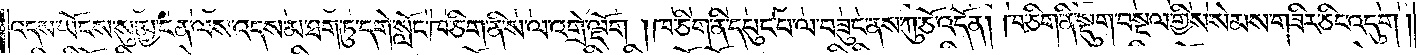འདས་ཡོངས་སུ་མྱ་ངན་ལས་འདས་མ་ཐག་ཏུ་དགེ་སློང་ཁ་ཅིག་ནི་ས་ལ་འགྲེ་ལྡོག །ཁ་ཅིག་ནི་དཔུང་བ་ལ་བཟུང་ནས་ཀུ་ཅོ་འདོན། ཁ་ཅིག་ནི་སྡུག་བསྔལ་གྱིས་སེམས་གཟིར་ཅིང་འདུག །
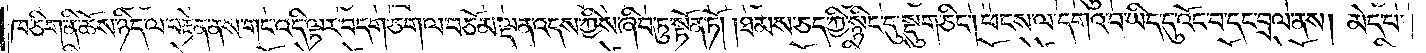ཁ་ཅིག་ནི་ཆོས་ཉིད་ལ་བརྟེན་ནས་གང་འདི་ལྟར་བདག་ཅག་ལ་བཅོམ་ལྡན་འདས་ཀྱིས་ཞིབ་ཏུ་སྟོན་ཏོ། །ཐམས་ཅད་ཀྱི་སྙིང་དུ་སྡུག་ཅིང༌། ཕངས་ལ་དགའ་བ་ཡིད་དུ་འོང་བ་དང་བྲལ་ནས། མེད་པ་
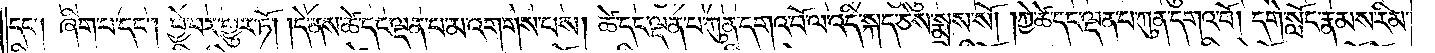དང༌། ཞིག་པ་དང༌། བྱེ་བར་གྱུར་ཏོ། །དེ་ནས་ཚེ་དང་ལྡན་པ་མ་འགགས་པས། ཚེ་དང་ལྡན་པ་ཀུན་དགའ་བོ་ལ་འདི་སྐད་ཅེས་སྨྲས་སོ། །ཀྱེ་ཚེ་དང་ལྡན་པ་ཀུན་དགའ་བོ། དགེ་སློང་རྣམས་རིམ་
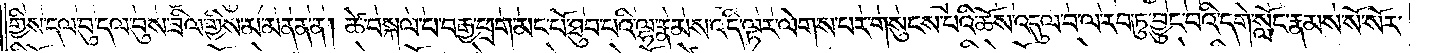གྱིས་དལ་བུ་དལ་བུས་ཟིལ་གྱིས་མ་མནན་ན། ཚེ་བསྐལ་པ་བརྒྱ་ཕྲག་མང་པོ་ཐུབ་པའི་ལྷ་རྣམས་འདི་ལྟར་ལེགས་པར་གསུངས་པའི་ཆོས་འདུལ་བ་ལ་རབ་ཏུ་བྱུང་བའི་དགེ་སློང་རྣམས་སོ་སོར་
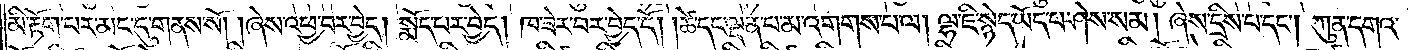མི་རྟོག་པར་མང་དུ་གནས་སོ། །ཞེས་འཕྱ་བར་བྱེད། སྨོད་པར་བྱེད། ཁ་ཟེར་བར་བྱེད་དོ། །ཚེ་དང་ལྡན་པ་མ་འགགས་པ་ལ། ལྷ་ཇི་སྙེད་ཡོད་པ་ཤེས་སམ། ཞེས་དྲིས་པ་དང༌། ཀུན་དགའ་
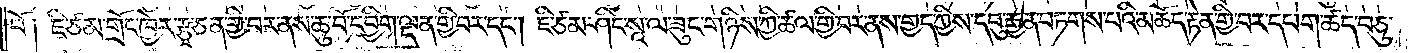བོ། ཇི་ཙམ་གྲོང་ཁྱེར་རྩྭ་ཅན་གྱི་བར་ནས་ཆུ་བོ་དབྱིག་ལྡན་གྱི་བར་དང༌། ཇི་ཙམ་ཤིང་སཱ་ལ་ཟུང་གཉིས་ཀྱི་ཚལ་གྱི་བར་ནས་གྱད་ཀྱིས་དབུ་རྒྱན་བཏགས་པའི་མཆོད་རྟེན་གྱི་བར་དཔག་ཚད་བཅུ་
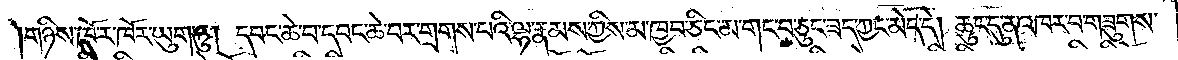།གཉིས་ཁོ་ར་ཁོར་ཡུག་ཏུ། དབང་ཆེ་བ་དབང་ཆེ་བར་གྲགས་པའི་ལྷ་རྣམས་ཀྱིས་མ་ཁྱབ་ཅིང་མ་གང་བ་ཅུང་ཟད་ཀྱང་མེད་དེ། ཆུང་དུ་ན་འཁར་བ་གཟུགས་
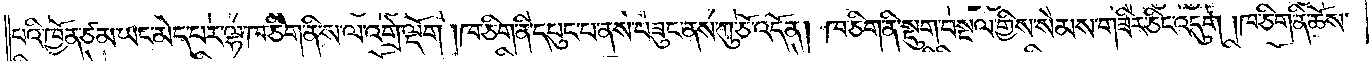པའི་ཁྱོན་ཙམ་ཡང་མེད་པར་ལྷ་ཁ་ཅིག་ནི་ས་ལ་འགྲེ་ལྡོག །ཁ་ཅིག་ནི་དཔུང་པ་ནས་བཟུང་ནས་ཀུ་ཅོ་འདོན། ཁ་ཅིག་ནི་སྡུག་བསྔལ་གྱིས་སེམས་གཟིར་ཅིང་འདུག །ཁ་ཅིག་ནི་ཆོས་
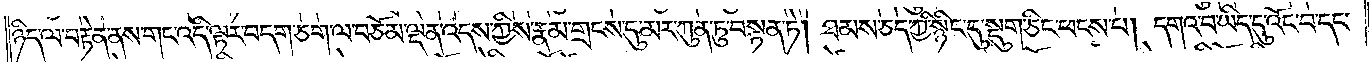ཉིད་ལ་བརྟེན་ནས་གང་འདི་ལྟར་བདག་ཅག་ལ་བཅོམ་ལྡན་འདས་ཀྱིས་རྣམ་གྲངས་དུ་མར་ཀུན་ཏུ་བསྟན་ཏེ། ཐམས་ཅད་ཀྱི་སྙིང་དུ་སྡུག་ཅིང་ཕངས་པ། དགའ་བ་ཡིད་དུ་འོང་བ་དང་
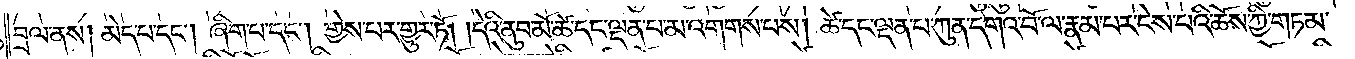བྲལ་ནས། མེད་པ་དང༌། ཞིག་པ་དང༌། གྱེས་པར་གྱུར་ཏོ། །དེའི་ནུབ་མོ་ཚེ་དང་ལྡན་པ་མ་འགགས་པས། ཚེ་དང་ལྡན་པ་ཀུན་དགའ་བོ་ལ་རྣམ་པར་ངེས་པའི་ཆོས་ཀྱི་གཏམ་
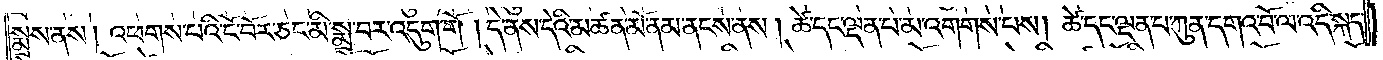སྨྲས་ནས། འཕགས་པའི་ངོ་བོར་ཅང་མི་སྨྲ་བར་འདུག་གོ །དེ་ནས་དེའི་མཚན་མོ་ནམ་ནངས་ནས། ཚེ་དང་ལྡན་པ་མ་འགགས་པས། ཚེ་དང་ལྡན་པ་ཀུན་དགའ་བོ་ལ་འདི་སྐད་
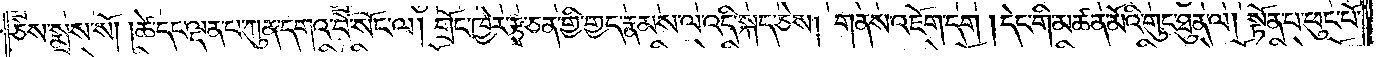ཅེས་སྨྲས་སོ། །ཚེ་དང་ལྡན་པ་ཀུན་དགའ་བོ་སོང་ལ། གྲོང་ཁྱེར་རྩྭ་ཅན་གྱི་གྱད་རྣམས་ལ་འདི་སྐད་ཅེས། གནས་འཇོག་དག །དེང་གི་མཚན་མོའི་གུང་ཐུན་ལ། སྟོན་པ་ཕུང་པོ་
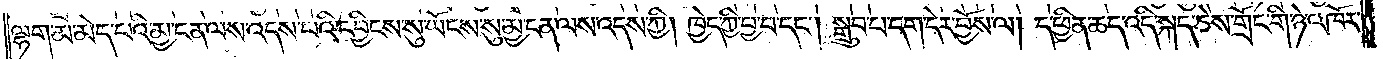ལྷག་མ་མེད་པའི་མྱ་ངན་ལས་འདས་པའི་དབྱིངས་སུ་ཡོངས་སུ་མྱ་ངན་ལས་འདས་ཀྱི། ཁྱེད་ཀྱི་བྱ་བ་དང༌། སྒྲུབ་པ་དག་དེར་བྱོས་ལ། ད་ཕྱིན་ཆད་འདི་སྐད་ཅེས་གྲོང་གི་ཉེ་འཁོར་
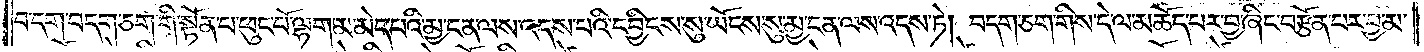བདག་བདག་ཅག་གི་སྟོན་པ་ཕུང་པོ་ལྷག་མ་མེད་པའི་མྱ་ངན་ལས་འདས་པའི་དབྱིངས་སུ་ཡོངས་སུ་མྱ་ངན་ལས་འདས་ཏེ། བདག་ཅག་གིས་དེ་ལ་མཆོད་པར་བྱ་ཞིང་བརྩོན་པར་བྱ་མ་
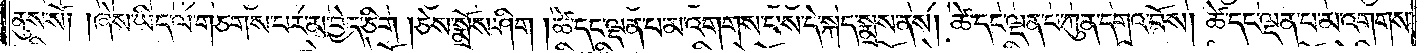ནུས་སོ། །ཞེས་ཡིད་ལ་གཅགས་པར་མ་བྱེད་ཅིག །ཅེས་སྨྲོས་ཤིག །ཚེ་དང་ལྡན་པ་མ་འགགས་པས་དེ་སྐད་སྨྲས་ནས། ཚེ་དང་ལྡན་པ་ཀུན་དགའ་བོས། ཚེ་དང་ལྡན་པ་མ་འགགས་
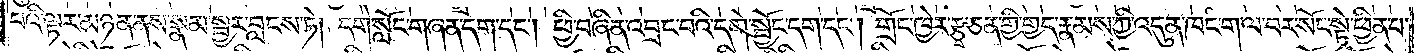པའི་ལྟར་མཉན་ནས་སྣམ་སྦྱར་བླངས་ཏེ། དགེ་སློང་གཞན་དག་དང༌། ཕྱི་བཞིན་འབྲང་བའི་དགེ་སྦྱོང་དག་དང༌། གྲོང་ཁྱེར་རྩྭ་ཅན་གྱི་གྱད་རྣམས་ཀྱི་འདུན་ཁང་ག་ལ་བར་སོང་སྟེ་ཕྱིན་པ་
